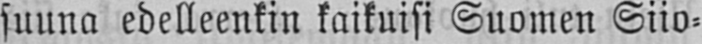suuna edelleenkin kaikuisi Suomen Siio-
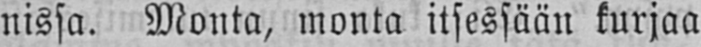nissa. Monta, monta itsessään kurjaa
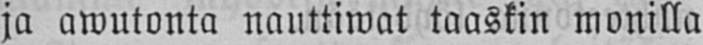ja awutonta nauttiwat taaskin monilla
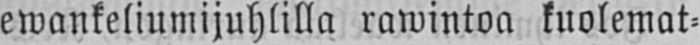ewankeliumijuhlilla rawintoa kuolemat-
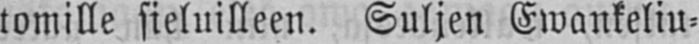tomille sieluilleen. Suljen Ewankeliu-
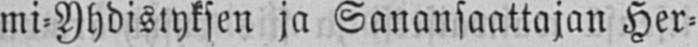mi-Yhdistyksen ja Sanansaattajan Her-
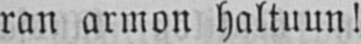ran armon haltuun!
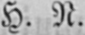H. N.
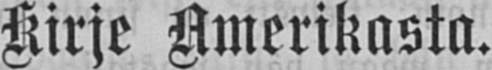Kirje Amerikasta.
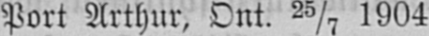Port Arthur, Ont. 25/7 1904.
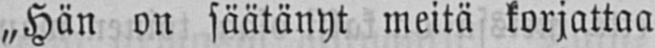„Hän on säätänyt meitä korjattaa
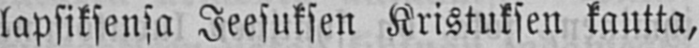lapsiksensa Jeesuksen Kristuksen kautta,
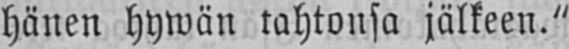hänen hywän tahtonsa jälkeen."
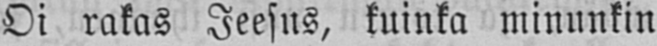Oi rakas Jeesus, kuinka minunkin
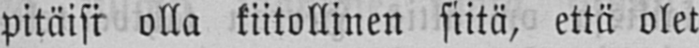pitäisi olla kiitollinen siitä, että olet
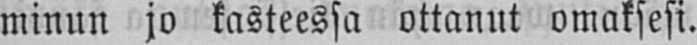minun jo kasteessa ottanut omaksesi.
